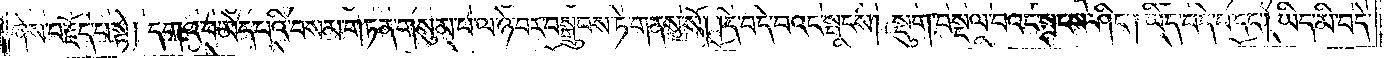ཞེས་བརྗོད་པ་སྟེ། དགའ་བ་མེད་པའི་བསམ་གཏན་གསུམ་པ་ལ་ཉེ་བར་བསྒྲུབས་ཏེ་གནས་སོ། །དེ་བདེ་བའང་སྤངས། སྡུག་བསྔལ་བའང་སྤངས་ཤིང༌། ཡིད་བདེ་བ་དང༌། ཡིད་མི་བདེ་
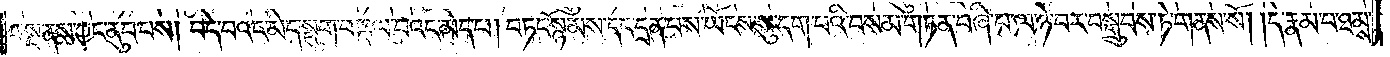བ་སྔ་ནས་ཀྱང་ནུབ་པས། བདེ་བའང་མེད་སྡུག་བསྔལ་བའང་མེད་པ། བཏང་སྙོམས་དང་དྲན་པས་ཡོངས་སུ་དག་པའི་བསམ་གཏན་བཞི་པ་ལ་ཉེ་བར་བསྒྲུབས་ཏེ་གནས་སོ། །དེ་རྣམ་པ་ཐམས་
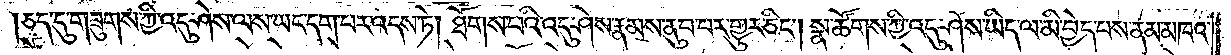ཅད་དུ་གཟུགས་ཀྱི་འདུ་ཤེས་ལས་ཡང་དག་པར་འདས་ཏེ། ཐོགས་པའི་འདུ་ཤེས་རྣམས་ནུབ་པར་གྱུར་ཅིང༌། སྣ་ཚོགས་ཀྱི་འདུ་ཤེས་ཡིད་ལ་མི་བྱེད་པས་ནམ་མཁའ་
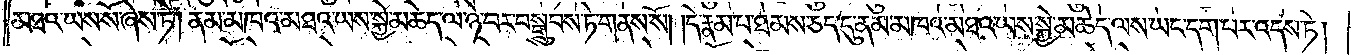མཐའ་ཡས་སོ་ཞེས་ཏེ། ནམ་མཁའ་མཐའ་ཡས་སྐྱེ་མཆེད་ལ་ཉེ་བར་བསྒྲུབས་ཏེ་གནས་སོ། །དེ་རྣམ་པ་ཐམས་ཅད་དུ་ནམ་མཁའ་མཐའ་ཡས་སྐྱེ་མཆེད་ལས་ཡང་དག་པར་འདས་ཏེ།
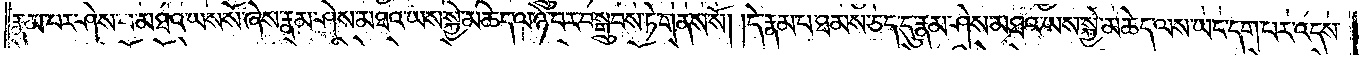རྣམ་པར་ཤེས་པ་མཐའ་ཡས་སོ་ཞེས་རྣམ་ཤེས་མཐའ་ཡས་སྐྱེ་མཆེད་ལ་ཉེ་བར་བསྒྲུབས་ཏེ་གནས་སོ། །དེ་རྣམ་པ་ཐམས་ཅད་དུ་རྣམ་ཤེས་མཐའ་ཡས་སྐྱེ་མཆེད་ལས་ཡང་དག་པར་འདས་
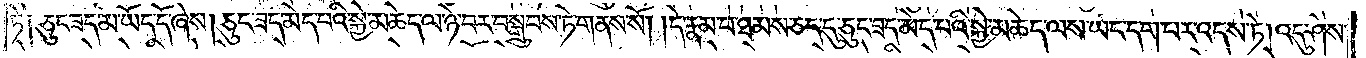ཏེ། ཅུང་ཟད་མ་ཡོད་དོ་ཞེས། ཅུང་ཟད་མེད་པའི་སྐྱེ་མཆེད་ལ་ཉེ་བར་བསྒྲུབས་ཏེ་གནས་སོ། །དེ་རྣམ་པ་ཐམས་ཅད་དུ་ཅུང་ཟད་མེད་པའི་སྐྱེ་མཆེད་ལས་ཡང་དག་པར་འདས་ཏེ། འདུ་ཤེས་
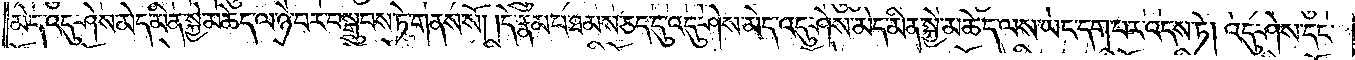མེད་འདུ་ཤེས་མེད་མིན་སྐྱེ་མཆེད་ལ་ཉེ་བར་བསྒྲུབས་ཏེ་གནས་སོ། །དེ་རྣམ་པ་ཐམས་ཅད་དུ་འདུ་ཤེས་མེད་འདུ་ཤེས་མེད་མིན་སྐྱེ་མཆེད་ལས་ཡང་དག་པར་འདས་ཏེ། འདུ་ཤེས་དང་
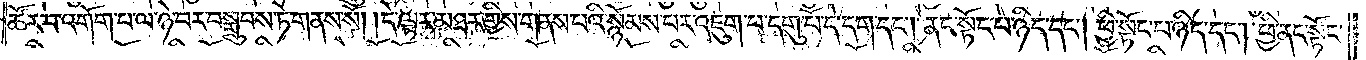ཚོར་བ་འགོག་པ་ལ་ཉེ་བར་བསྒྲུབས་ཏེ་གནས་སོ། །དེ་ལྟར་མཐར་གྱིས་གནས་པའི་སྙོམས་པར་འཇུག་པ་དགུ་པོ་དེ་དག་དང༌། ནང་སྟོང་པ་ཉིད་དང༌། ཕྱི་སྟོང་པ་ཉིད་དང༌། ཕྱི་ནང་སྟོང་
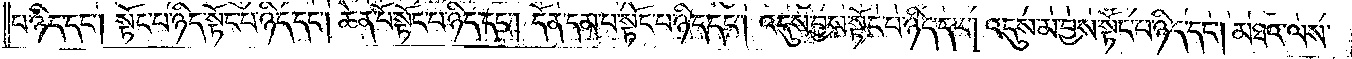པ་ཉིད་དང༌། སྟོང་པ་ཉིད་སྟོང་པ་ཉིད་དང༌། ཆེན་པོ་སྟོང་པ་ཉིད་དང༌། དོན་དམ་པ་སྟོང་པ་ཉིད་དང༌། འདུས་བྱས་སྟོང་པ་ཉིད་དང༌། འདུས་མ་བྱས་སྟོང་པ་ཉིད་དང༌། མཐའ་ལས་
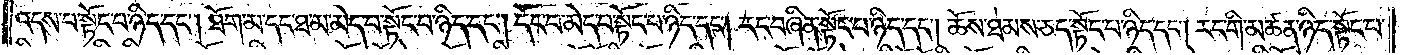འདས་པ་སྟོང་པ་ཉིད་དང༌། ཐོག་མ་དང་ཐ་མ་མེད་པ་སྟོང་པ་ཉིད་དང༌། དོང་བ་མེད་པ་སྟོང་པ་ཉིད་དང༌། རང་བཞིན་སྟོང་པ་ཉིད་དང༌། ཆོས་ཐམས་ཅད་སྟོང་པ་ཉིད་དང༌། རང་གི་མཚན་ཉིད་སྟོང་པ་
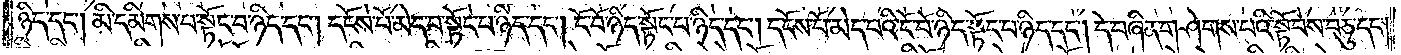ཉིད་དང༌། མི་དམིགས་པ་སྟོང་པ་ཉིད་དང༌། དངོས་པོ་མེད་པ་སྟོང་པ་ཉིད་དང༌། ངོ་བོ་ཉིད་སྟོང་པ་ཉིད་དང༌། དངོས་པོ་མེད་པའི་ངོ་བོ་ཉིད་སྟོང་པ་ཉིད་དང༌། དེ་བཞིན་གཤེགས་པའི་སྟོབས་བཅུ་དང༌།
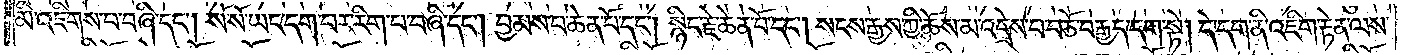མི་འཇིགས་པ་བཞི་དང༌། སོ་སོ་ཡང་དག་པར་རིག་པ་བཞི་དང༌། བྱམས་པ་ཆེན་པོ་དང༌། སྙིང་རྗེ་ཆེན་པོ་དང༌། སངས་རྒྱས་ཀྱི་ཆོས་མ་འདྲེས་པ་བཅོ་བརྒྱད་དག་སྟེ། དེ་དག་ནི་འཇིག་རྟེན་ལས་
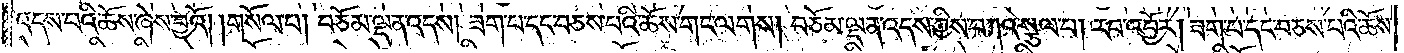འདས་པའི་ཆོས་ཞེས་བྱའོ། །གསོལ་བ། བཅོམ་ལྡན་འདས། ཟག་པ་དང་བཅས་པའི་ཆོས་གང་ལགས། བཅོམ་ལྡན་འདས་ཀྱིས་བཀའ་སྩལ་པ། རབ་འབྱོར། ཟག་པ་དང་བཅས་པའི་ཆོས་
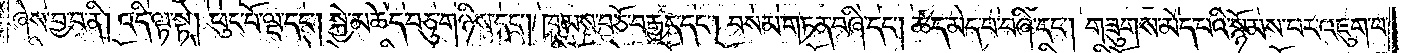ཞེས་བྱ་བ་ནི། འདི་ལྟ་སྟེ། ཕུང་པོ་ལྔ་དང༌། སྐྱེ་མཆེད་བཅུ་གཉིས་དང༌། ཁམས་བཅོ་བརྒྱད་དང༌། བསམ་གཏན་བཞི་དང༌། ཚད་མེད་པ་བཞི་དང༌། གཟུགས་མེད་པའི་སྙོམས་པར་འཇུག་པ་
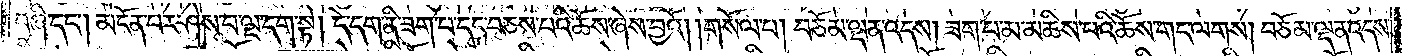བཞི་དང༌། མངོན་པར་ཤེས་པ་ལྔ་དག་སྟེ། དེ་དག་ནི་ཟག་པ་དང་བཅས་པའི་ཆོས་ཞེས་བྱའོ། །གསོལ་པ། བཅོམ་ལྡན་འདས། ཟག་པ་མ་མཆིས་པའི་ཆོས་གང་ལགས། བཅོམ་ལྡན་འདས་
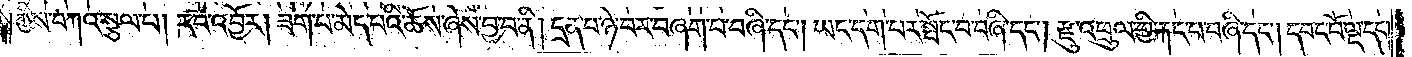ཀྱིས་བཀའ་སྩལ་པ། རབ་འབྱོར། ཟག་པ་མེད་པའི་ཆོས་ཞེས་བྱ་བ་ནི། དྲན་པ་ཉེ་བར་བཞག་པ་བཞི་དང༌། ཡང་དག་པར་སྤོང་བ་བཞི་དང༌། རྫུ་འཕྲུལ་གྱི་རྐང་པ་བཞི་དང༌། དབང་པོ་ལྔ་དང༌།
